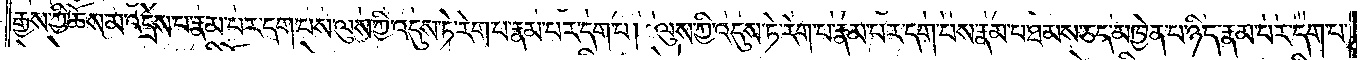རྒྱས་ཀྱི་ཆོས་མ་འདྲེས་པ་རྣམ་པར་དག་པས་ལུས་ཀྱི་འདུས་ཏེ་རེག་པ་རྣམ་པར་དག་པ། ལུས་ཀྱི་འདུས་ཏེ་རེག་པ་རྣམ་པར་དག་པས་རྣམ་པ་ཐམས་ཅད་མཁྱེན་པ་ཉིད་རྣམ་པར་དག་པ་
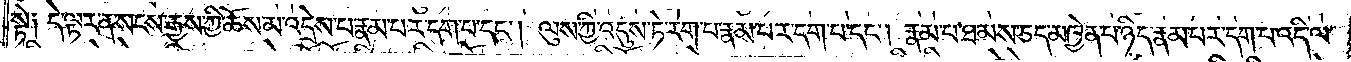སྟེ༑ དེ་ལྟར་ན་སངས་རྒྱས་ཀྱི་ཆོས་མ་འདྲེས་པ་རྣམ་པར་དག་པ་དང༌། ལུས་ཀྱི་འདུས་ཏེ་རེག་པ་རྣམ་པར་དག་པ་དང༌། རྣམ་པ་ཐམས་ཅད་མཁྱེན་པ་ཉིད་རྣམ་པར་དག་པ་འདི་ལ་
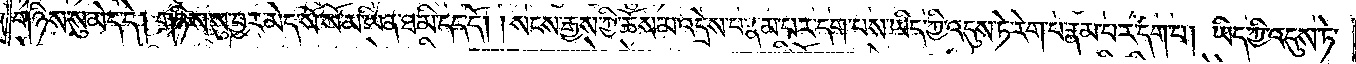གཉིས་སུ་མེད་དེ། གཉིས་སུ་བྱར་མེད་སོ་སོ་མ་ཡིན་ཐ་མི་དད་དོ། །སངས་རྒྱས་ཀྱི་ཆོས་མ་འདྲེས་པ་རྣམ་པར་དག་པས་ཡིད་ཀྱི་འདུས་ཏེ་རེག་པ་རྣམ་པར་དག་པ། ཡིད་ཀྱི་འདུས་ཏེ་
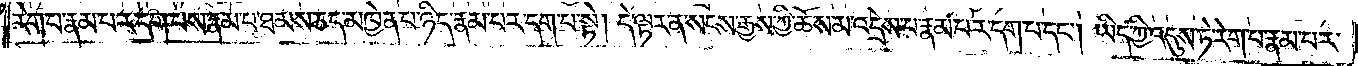རེག་པ་རྣམ་པར་དག་པས་རྣམ་པ་ཐམས་ཅད་མཁྱེན་པ་ཉིད་རྣམ་པར་དག་པ་སྟེ། དེ་ལྟར་ན་སངས་རྒྱས་ཀྱི་ཆོས་མ་འདྲེས་པ་རྣམ་པར་དག་པ་དང༌། ཡིད་ཀྱི་འདུས་ཏེ་རེག་པ་རྣམ་པར་
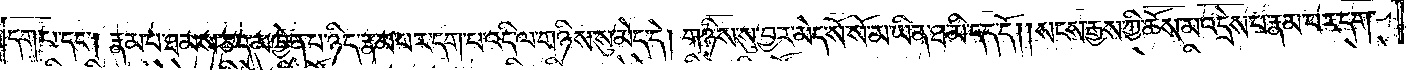དག་པ་དང༌། རྣམ་པ་ཐམས་ཅད་མཁྱེན་པ་ཉིད་རྣམ་པར་དག་པ་འདི་ལ་གཉིས་སུ་མེད་དེ། གཉིས་སུ་བྱར་མེད་སོ་སོ་མ་ཡིན་ཐ་མི་དད་དོ། །སངས་རྒྱས་ཀྱི་ཆོས་མ་འདྲེས་པ་རྣམ་པར་དག་
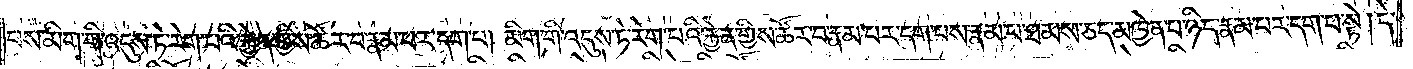པས་མིག་གི་འདུས་ཏེ་རེག་པའི་རྐྱེན་གྱིས་ཚོར་བ་རྣམ་པར་དག་པ། མིག་གི་འདུས་ཏེ་རེག་པའི་རྐྱེན་གྱིས་ཚོར་བ་རྣམ་པར་དག་པས་རྣམ་པ་ཐམས་ཅད་མཁྱེན་པ་ཉིད་རྣམ་པར་དག་པ་སྟེ། དེ་
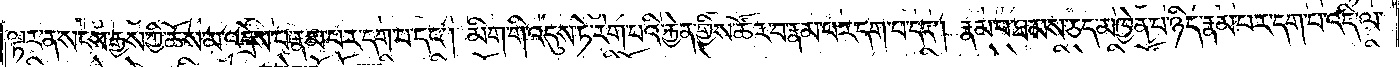ལྟར་ན་སངས་རྒྱས་ཀྱི་ཆོས་མ་འདྲེས་པ་རྣམ་པར་དག་པ་དང༌། མིག་གི་འདུས་ཏེ་རེག་པའི་རྐྱེན་གྱིས་ཚོར་བ་རྣམ་པར་དག་པ་དང༌། རྣམ་པ་ཐམས་ཅད་མཁྱེན་པ་ཉིད་རྣམ་པར་དག་པ་འདི་ལ་
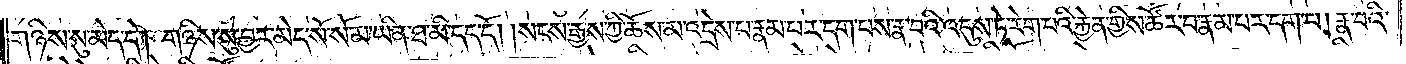གཉིས་སུ་མེད་དེ། གཉིས་སུ་བྱར་མེད་སོ་སོ་མ་ཡིན་ཐ་མི་དད་དོ། །སངས་རྒྱས་ཀྱི་ཆོས་མ་འདྲེས་པ་རྣམ་པར་དག་པས་རྣ་བའི་འདུས་ཏེ་རེག་པའི་རྐྱེན་གྱིས་ཚོར་བ་རྣམ་པར་དག་པ། རྣ་བའི་
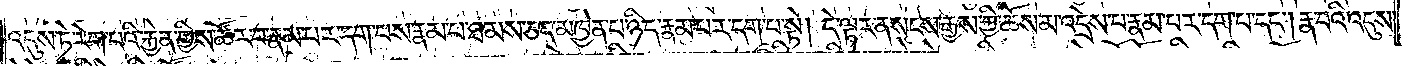འདུས་ཏེ་རེག་པའི་རྐྱེན་གྱིས་ཚོར་བ་རྣམ་པར་དག་པས་རྣམ་པ་ཐམས་ཅད་མཁྱེན་པ་ཉིད་རྣམ་པར་དག་པ་སྟེ། དེ་ལྟར་ན་སངས་རྒྱས་ཀྱི་ཆོས་མ་འདྲེས་པ་རྣམ་པར་དག་པ་དང༌། རྣ་བའི་འདུས་
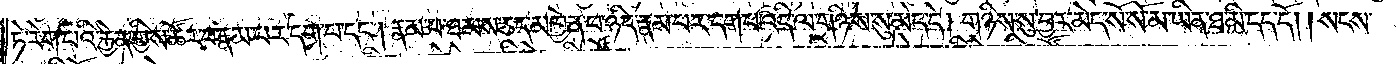ཏེ་རེག་པའི་རྐྱེན་གྱིས་ཚོར་བ་རྣམ་པར་དག་པ་དང༌། རྣམ་པ་ཐམས་ཅད་མཁྱེན་པ་ཉིད་རྣམ་པར་དག་པ་འདི་ལ་གཉིས་སུ་མེད་དེ། གཉིས་སུ་བྱར་མེད་སོ་སོ་མ་ཡིན་ཐ་མི་དད་དོ། །སངས་
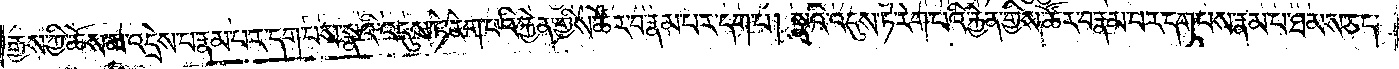རྒྱས་ཀྱི་ཆོས་མ་འདྲེས་པ་རྣམ་པར་དག་པས་སྣའི་འདུས་ཏེ་རེག་པའི་རྐྱེན་གྱིས་ཚོར་བ་རྣམ་པར་དག་པ། སྣའི་འདུས་ཏེ་རེག་པའི་རྐྱེན་གྱིས་ཚོར་བ་རྣམ་པར་དག་པས་རྣམ་པ་ཐམས་ཅད་
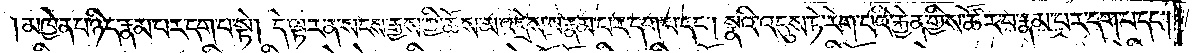མཁྱེན་པ་ཉིད་རྣམ་པར་དག་པ་སྟེ། དེ་ལྟར་ན་སངས་རྒྱས་ཀྱི་ཆོས་མ་འདྲེས་པ་རྣམ་པར་དག་པ་དང༌། སྣའི་འདུས་ཏེ་རེག་པའི་རྐྱེན་གྱིས་ཚོར་བ་རྣམ་པར་དག་པ་དང༌།
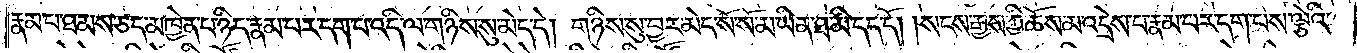རྣམ་པ་ཐམས་ཅད་མཁྱེན་པ་ཉིད་རྣམ་པར་དག་པ་འདི་ལ་གཉིས་སུ་མེད་དེ། གཉིས་སུ་བྱར་མེད་སོ་སོ་མ་ཡིན་ཐ་མི་དད་དོ། །སངས་རྒྱས་ཀྱི་ཆོས་མ་འདྲེས་པ་རྣམ་པར་དག་པས་ལྕེའི་
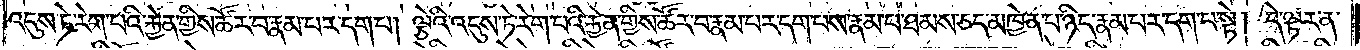འདུས་ཏེ་རེག་པའི་རྐྱེན་གྱིས་ཚོར་བ་རྣམ་པར་དག་པ། ལྕེའི་འདུས་ཏེ་རེག་པའི་རྐྱེན་གྱིས་ཚོར་བ་རྣམ་པར་དག་པས་རྣམ་པ་ཐམས་ཅད་མཁྱེན་པ་ཉིད་རྣམ་པར་དག་པ་སྟེ། དེ་ལྟར་ན་
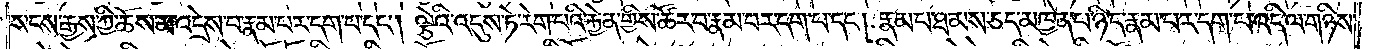སངས་རྒྱས་ཀྱི་ཆོས་མ་འདྲེས་པ་རྣམ་པར་དག་པ་དང༌། ལྕེའི་འདུས་ཏེ་རེག་པའི་རྐྱེན་གྱིས་ཚོར་བ་རྣམ་པར་དག་པ་དང༌། རྣམ་པ་ཐམས་ཅད་མཁྱེན་པ་ཉིད་རྣམ་པར་དག་པ་འདི་ལ་གཉིས་
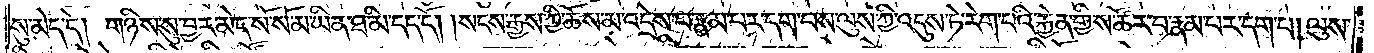སུ་མེད་དེ། གཉིས་སུ་བྱར་མེད་སོ་སོ་མ་ཡིན་ཐ་མི་དད་དོ། །སངས་རྒྱས་ཀྱི་ཆོས་མ་འདྲེས་པ་རྣམ་པར་དག་པས་ལུས་ཀྱི་འདུས་ཏེ་རེག་པའི་རྐྱེན་གྱིས་ཚོར་བ་རྣམ་པར་དག་པ། ལུས་
